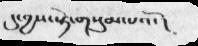དུ་བྱས་སྟེ་གསུམ་པའོ་ །
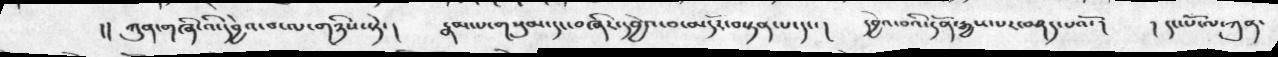།།  ཀུན་གཞི་འི་དབྱེའ་བ་ལ་གཉིས་སྟེ་།  རྣམ་པ་གསུམ་དང་བཞིར་དབྱེའ་བ་མདོར་བསྟན་པ་དང་།  དབྱེའ་བའི་དོན་རྒྱས་པར་བཤད་པའོ་།  ། དང་པོ་ལ་ཀུན་
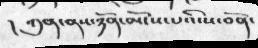།  ཀུན་ནས་ཉོན་མོངས་པའི་ས་བོན་
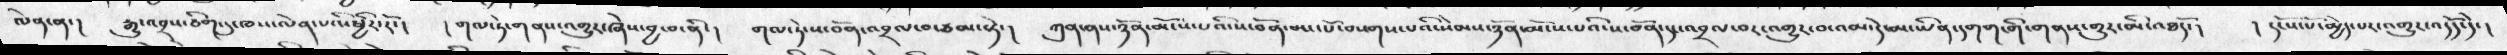ལེན་ན་།  རྒྱུ་འབྲས་ཅིག་དུ་ཁས་ལེན་པའི་ཕྱིར་རོ་།   ། གལ་ཏེ་གནས་འགྱུར་ཞེས་བྱ་བ་ནི་།  གལ་ཏེ་ས་བོན་འབྲལ་བ་ཙམ་སྟེ་།  ཀུན་ནས་ཉོན་མོངས་པའི་ས་བོན་མང་པོ་བསགས་པའི་སེམས་ཉོན་མོངས་པའི་ས་བོན་དང་འབྲལ་བར་འགྱུར་བ་འམ་དེ་མ་ཡིན་དགག་གི་གནས་གྱུར་མི་འཐདོ་།   ། དངོས་པོ་མྱེད་པར་འགྱུར་འདོད་དེ་།
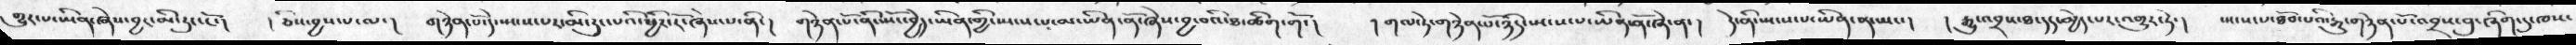གྱུར་པ་ཡིན་ཞེས་བྱང་མི་རུང་ངོ་།  ། ཅིས་བྱས་པ་ལ་།  གཉེན་པོ་དེ་སྤངས་པར་མི་རུང་པའི་ཕྱིར་རོ་ཞེས་པ་ནི་།  གཉེན་པོ་ནི་སྤོང་བྱེད་ཡིན་གྱི་སྤངས་པ་མ་ཡིན་ནོ་ཞེས་བྱ་བའི་ཐ་ཚིག་གོ་།   ། གལ་ཏེ་གཉེན་པོ་ཉིད་སྤངས་པ་ཡིན་ནོ་ཞེ་ནང།  དེ་ནི་སྤངས་པ་ཡིན་ན་ཡང་།   ། རྒྱུ་འབྲས་ཐ་དད་མྱེད་པར་འགྱུར་ཏེ་།   སྤངས་པ་ཐོབ་པའི་རྒྱུ་གཉེན་པོ་འབྲས་བུ་ཞིག་དུ་ཁས་
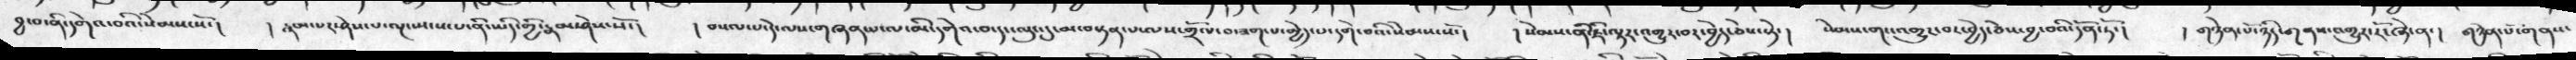བྱ་བ་ནི་དགེའ་བའི་སེམས་སོ་།  ། རྣམ་པར་ཤེས་པ་ལྔ་སྤངས་པ་་ནི་ཡིད་གྱི་རྣམ་ཤེས་སོ་།  ། བསལ་པ་དེ་ལས་གཞན་པ་ལ་མི་དགེའ་བ་དང་ལུང་དུ་མ་བསྟན་པ་ལས་གྲོལ་བ་ཟག་པ་མྱེད་པ་དགེ་བའི་སེམས་སོ་།   ། སེམས་ནི་ཇི་ལྟར་འགྱུར་བར་བྱེད་ཅེས་སྟེ་།  སེམས་གང་འགྱུར་བར་བྱེད་ཅེས་བྱ་བའི་དོན་ཏོ་།  ། གཉེན་པོ་ཉིད་གནས་འགྱུར་རོ་ཞེ་ན་།    གཉེན་པོ་གནས་
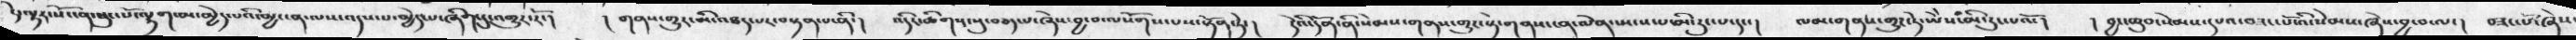དེ་ལྟར་སོང་ན་ཕུང་པོ་ལྷག་མ་མྱེད་པའི་མྱ་ངན་ལས་འདས་པ་མྱེད་པ་ཞིག་དུ་འགྱུར་རོ་།   ། གནས་གྱུར་མི་འཐད་པར་བསྟན་པ་ནི་།  འདིར་ཚིགས་སུ་བཅད་པ་ཞེས་བྱ་བ་ལསོགས་པས་སྟོན་ཏེ་།  དེའི་དོན་ནི་སེམས་གནས་གྱུར་སྟེ་གནས་ངན་ལེན་སྤངས་པ་མི་རུང་པ་དང་།  ལམ་གནས་གྱུར་ཏེ་ཡེེས་མི་རུང་པའོ་།  ། བྱང་ཆུབ་སེམས་དཔའ་བཟང་པོ་འི་སེམས་ཞེས་བྱ་བ་ལ་།  བཟང་པོ་ཞེས་
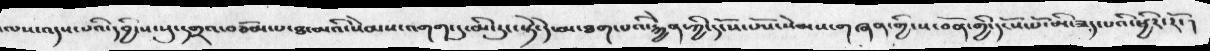ལས་འདས་པའི་དབྱིངས་སུ་དགྲའ་བཅོམ་པ་ཐ་མའི་སེམས་འགག་དུ་མི་རུང་སྟེ་དེ་མ་ཐག་པའི་རྐྱེན་ཀྱི་དངོས་པོས་སེམས་གཞན་གྱི་ས་བོན་གྱི་དངོས་པོ་མི་ཟད་པའི་ཕྱིར་རོ་།
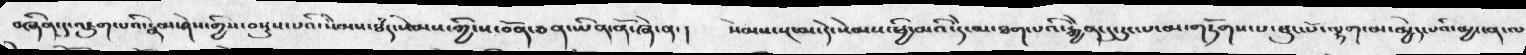བཞིན་དུ་འཇུག་པའི་རྣམ་ཤེས་གྱིས་བསྡུས་པའི་སེམས་ཐཾད་སེམས་ཀྱི་ས་བོན་ཅན་ཡིན་ནོ་ཞེ་ན་།  སེམས་སྔ་མ་དེ་སེམས་ཕྱི་མའི་དེ་མ་ཐག་པའི་རྐྱེན་དུ་རུང་པ་མ་གཏོགས་པ་ཕུང་པོ་ལྷག་མ་མྱེད་པའི་མྱ་ངན་ལ
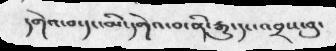དགེའ་བ་དང་མི་དགེའ་བ་ནི་རྒྱུ་དང་འབྲས་བུ་
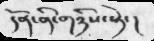དོན་ནི་གཉིས་སྟེ་།
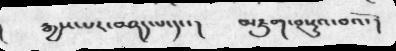།     རྒྱས་པར་བཤད་པ་དང་།     མཇུག་བསྡུའ་བའོ་།
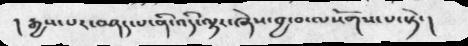། རྒྱས་པར་བཤད་པ་ནི་འདི་ལྟར་ཞེས་བྱ་བ་ལསོགས་པ་སྟེ་།
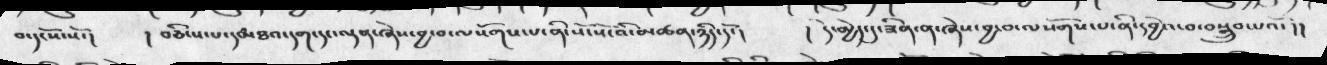བ་དངོས་སོ་།  ། བཅིངས་པ་དང་དམཾཐའ་དག་དང་ལྡན་ཞེས་བྱ་བ་ལསོགས་པ་ནི་སོ་སོ་འི་མཚན་ཉིད་དོ་།  ། དེ་མྱེད་དུ་ཟིན་ན་ཞེས་བྱ་བ་ལསོགས་པ་ནི་དབྱེའ་བ་བསྒྲུབ་པའོ་།།
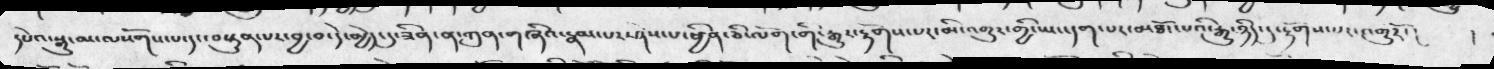དཔེའ་སྒྱུ་མ་ལསོགས་པ་དང་བསྟུན་པར་བྱ་བ་དེ་མྱེད་དུ་ཟིན་ན་ཀུན་གཞིའ་རྣམ་པར་ཤེས་པ་ཕྱིན་ཅི་ལོག་གི་རྒྱུར་རྟོགས་པར་མི་འགྱུར་གྱི་ཡང་དག་པར་མཐོང་པའི་རྒྱུ་ཉིད་དུ་རྟོགས་པར་འགྱུརོ་།   །
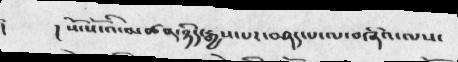།      །  སོ་སོ་འི་མཚན་ཉིད་རྒྱས་པར་བཤད་པ་ལ་བཞིའ་ལས་
